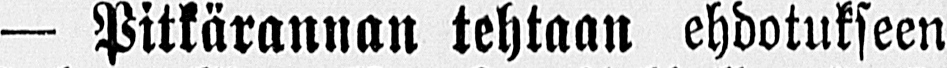— Pitkärannan tehtaan ehdotukseen
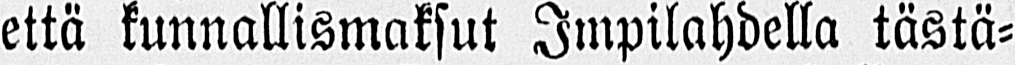että kunnallismaksut Impilahdella tästä-
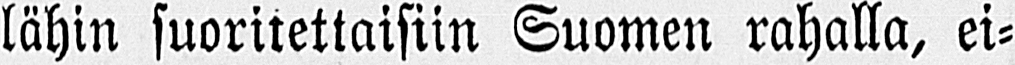lähin suoritettaisiin Suomen rahalla, ei-
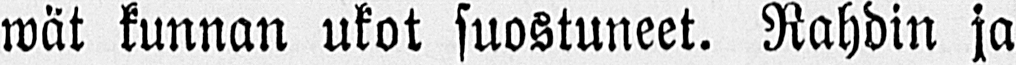wät kunnan ukot suostuneet. Rahdin ja
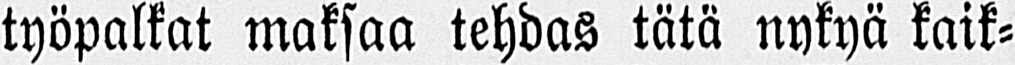työpalkat maksaa tehdas tätä nykyä kaik-
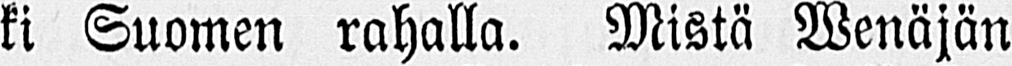ki Suomen rahalla. Mistä Wenäjän
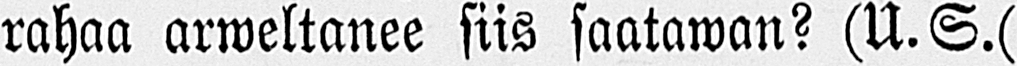rahaa arweltanee siis saatawan? (U.S.(
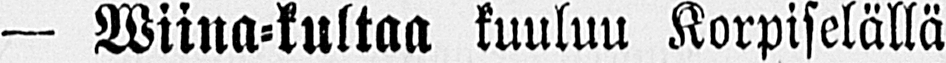— Wiina-kultaa kuuluu Korpiselällä
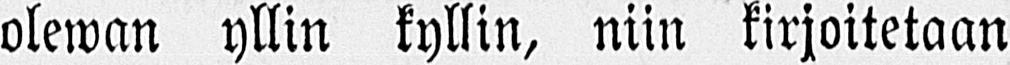olewan yllin kyllin, niin kirjoitetaan
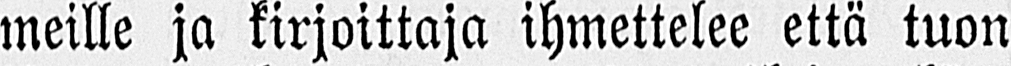meille ja kirjoittaja ihmettelee että tuon
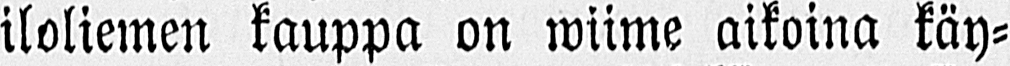iloliemen kauppa on wiime aikoina käy-
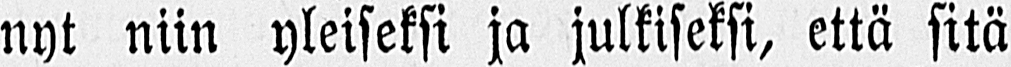nyt niin yleiseksi ja julkiseksi, että sitä
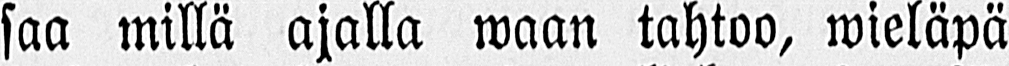saa millä ajalla waan tahtoo, wieläpä
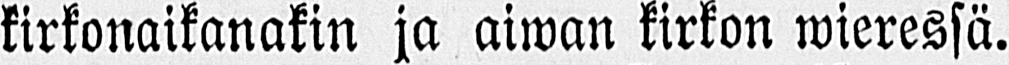kirkonaikanakin ja aiwan kirkon wieressä.
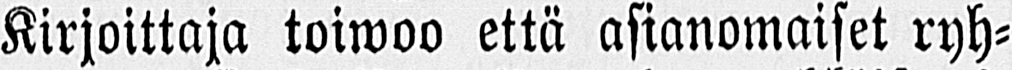Kirjoittaja toiwoo että asianomaiset ryh-
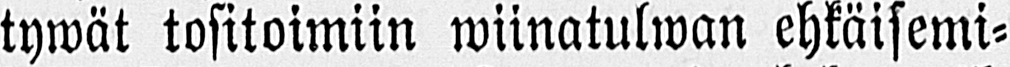tywät tositoimiin wiinatulwan ehkäisemi-
